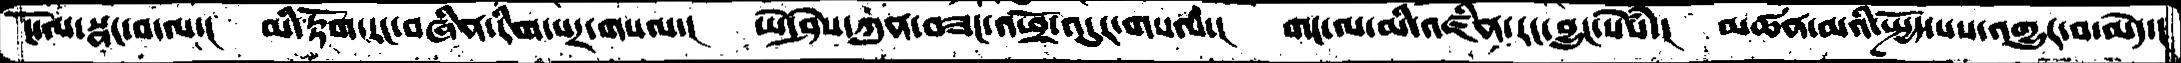ངོ་ལ་སྣང་བ་ལ་།  མི་རྟོག་རང་བཞིན་རིག་པར་གསལ་།  ཡེ་ཤེས་ཀུན་བཟང་འཕྲོ་འདུར་གསལ་།  གང་ལ་མི་འཛིན་རང་བྱུང་སེཾས་།  མཚན་མའི་སྤྱོད་པས་འགྱུར་བ་མེད་།
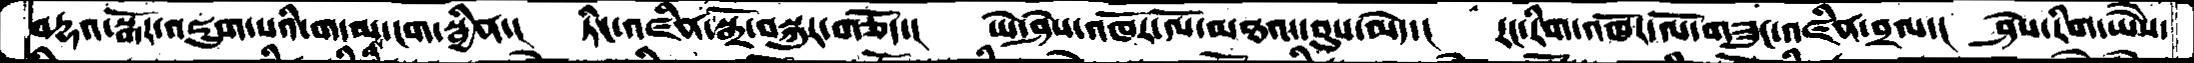བདྷའ་སྒོར་འཇུག་པའི་གདམ་ངག་སྦྱིན་།  ཏིང་འཛིན་སྒྲོ་བསྐུར་གཅོད་།  ཡེ་ཤེས་འཁོར་ལོ་མཐའ་དབུས་མེད་།  རང་རིག་འཁོར་ལོ་གཟུང་འཛིན་བྲལ་།  ཤེས་རིག་ཡཻས་
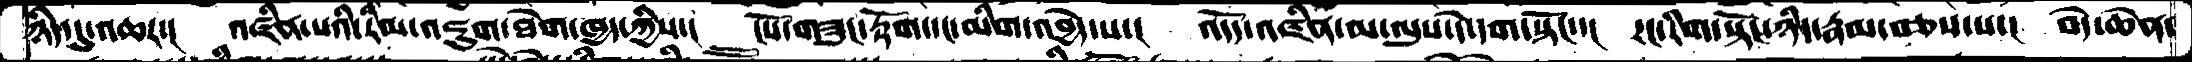ཉིད་དུ་འཆར་།   འཛིན་པའི་རིམ་འཇུག་ཐེག་ཁྱད་ཀྱིས་།  ངོས་གཟུང་རྟོག་དང་མིག་འབྱེད་པ་།   འདོད་འཛིན་མ་ལུས་དེ་དག་སྟོང་།   རང་རིག་སྟོང་ཉིད་རྣམ་བཅས་པ་།  བདེ་ཆེན་
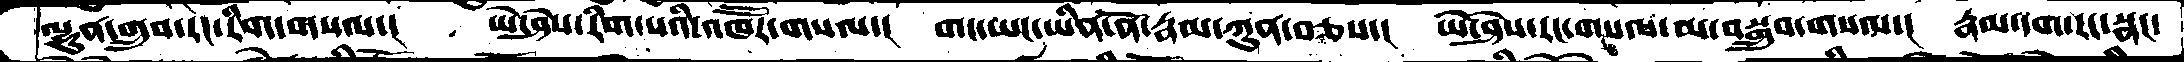ལྷུན་གྲུབ་རང་རིག་གསལ་།  ཡེ་ཤེས་རིག་པའི་འཁཽར་གསལ་།  གང་ཡང་ཡིན་ནོ་རྣམ་ཀུན་བཅས་།  ཡེ་ཤེས་རང་གསལ་མ་བསྒྲུབ་གསལ་།  རྣམ་དག་རང་སྣང་
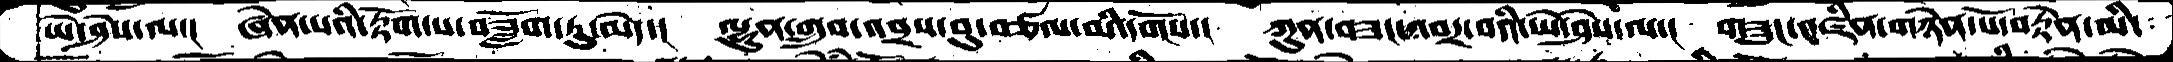ཡེ་ཤེས་ལ་།   ཞེན་པའི་རྟོག་པ་བཟློག་ཏུ་མེད་།   ལྷུན་གྲུབ་འབྲས་བུ་བཙལ་མི་དགོས་།  ཀུན་བཟང་འབར་བའི་ཡེ་ཤེས་ལ་།  གཟུང་འཛིན་གཉེན་པོ་བརྟེན་མི་
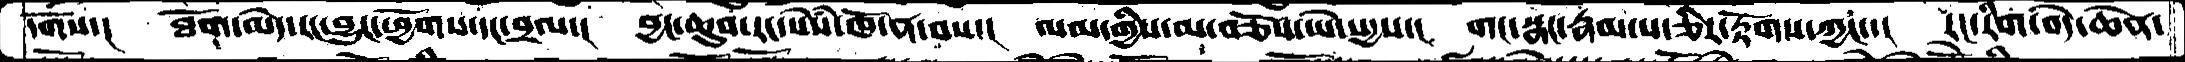དགོས་།  ཐོག་མེད་རང་བྱུང་ཕྱོགས་དང་བྲལ་།  བྱང་ཆུབ་རང་སེསཾ་ཁོ་ན་བས་།   ལམ་གྱིས་མ་བཅོས་ཡེ་སདྱས་།  གང་སྣང་རྣམ་པ་ཅིར་རྟོགས་ཀྱང་།  རང་རིག་བདེ་ཆེན་
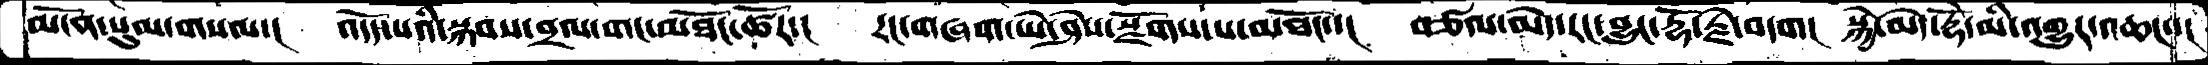མངོན་སུམ་གསལ་།  འོདད་པའི་སྐབས་བྲལ་གང་མཐོང་ཚོར་།  རང་གཞག་ཡེ་ཤེས་སྫོགས་པ་མཐོང་།  བཙལ་མེད་རང་བྱུང་རྡོ་རྗེ་བདག།   སྐྱེ་མེད་རྡོེ་མི་འགྱུར་འཆང་།
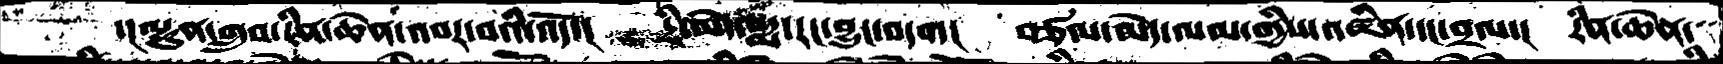་།ལྷུན་གྲུབ་རིན་ཆེན་འབར་བའི་འདོད་།  དྲི་མེད་པདྨ་རང་བྱུང་བདག།  བཙལ་མེད་ལམ་གྱིས་འཛིན་དང་བྲལ་།   རིན་ཆེན་
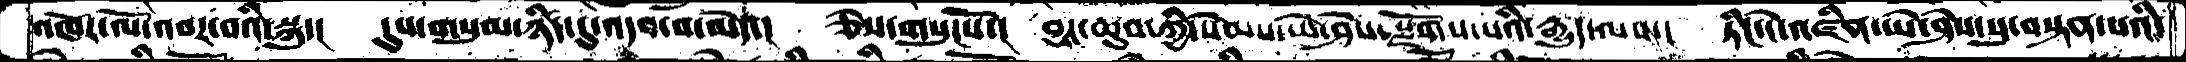འཁོར་ལོ་འབར་བའི་སྐུ་།  དུས་གསུམ་ཉིད་དུ་འདབ་བ་མེད་།  ཅེས་གསུངསོ་།   བྱང་ཆུབ་ཀྱི་སེམས་ཡེ་ཤེས་སྫོགས་པའི་རྒྱུད་ལས་།  ཏིང་ངེ་འཛིན་ཡེ་ཤེས་སུ་བསྟན་པའི་
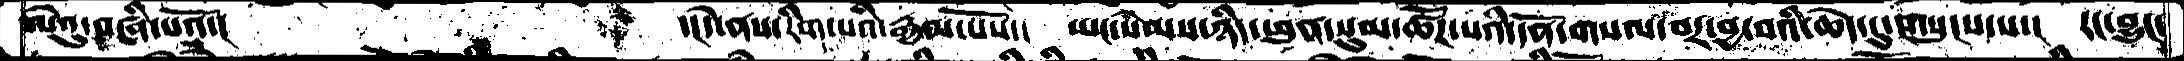ལེའུ་བཞི་པའོ་།   ་།དེ་ནས་རིག་པའི་རྒྱལ་པོས་།   ཡང་སེམས་ཉིད་ཕུན་སུམ་ཚོཌ་པའི་དོན་གསལ་བར་བྱ་བའི་ཆེད་དུ་གསུངས་པ་།  རང་བྱུང་
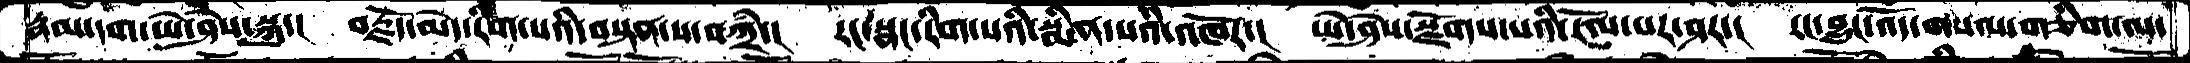རྣམ་དག་ཡེ་ཤེས་སྐུ་།  བརྗོད་མེད་རིག་པའི་བསྟན་པ་བཀྲཾ་།   རང་སྣང་རིག་པའི་སྨིན་པའི་འཁོར་།  ཡེ་ཤེས་སྫོགས་པའི་རོལ་པར་ཤར་།  རང་བྱུང་འོད་གསལ་གཅིག་ལ་
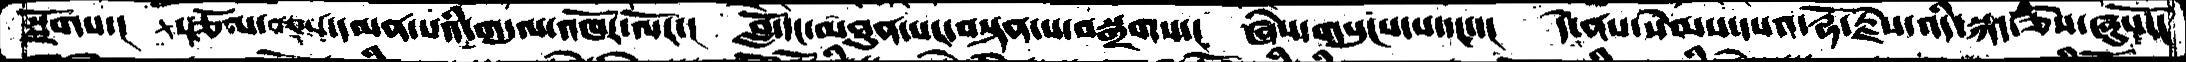སྫོགས་།  སྩོལ་བཅས་དམན་པའི་གདུལ་འཁོར་ལོར་།  བློ་དང་མཐུན་པར་བསྟན་པ་བསྒྲགས་།  ཞེས་གསུངས་པ་དང་་།  དེ་ནས་སེམས་དཔའ་རྡོ་རྗེས་འདི་སྐད་ཅེས་ཞུས་ོང
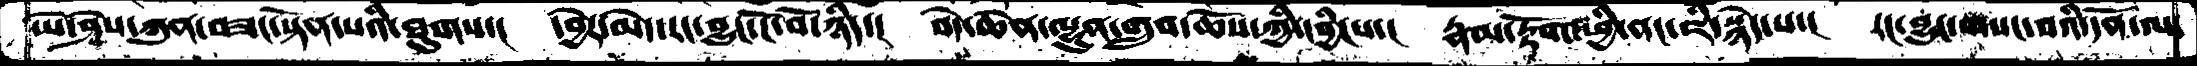ཡེ་ཤེས་ཀུན་བཟང་སྟོན་པའི་ཐུགས་།  དབྱེར་མེད་རང་བྱུང་ངོ་བོ་ཉིད་།   བདེ་ཆེན་ལྷུན་གྲུབ་ཆོས་ཀྱི་དབྱིངས་།  རྣམ་རྟོག་ཕྱི་ནང་ཇི་སྙེདཔ་།  རང་བྱུང་གསང་བའི་དོན་ལ་
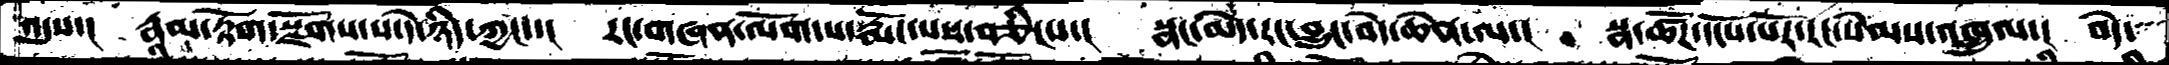འདུས་།   རྣམ་རྟོག་སྫོགས་པ་དེ་ཉིད་ཀྱང་།  རང་གཞན་ལོག་པ་སྨོད་པས་བཅིངས་།  སྣང་མེད་རང་བྱུང་བདེ་ཆེན་ལ་།  སྣ་ཚོཌ་དངོས་པོར་རང་སེམས་འཁྲུལ་།  བདེ་
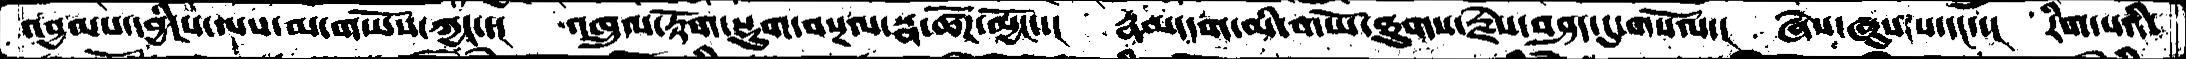འབྱམས་དབྱིངས་ལས་མ་གཡོས་ཀྱང་།   འཁྲུལ་རྟོག་སྡུག་བསྔལ་སྣ་ཚོཌ་མྱོང་།  རྣམ་དག་མི་གཡོ་ཐུགས་རྗེས་བཤད་དུ་གསོལ་།  ཞེས་ཞུས་པ་དང་།  རིག་པའི་
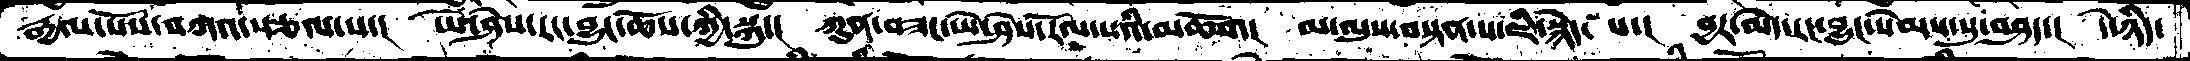རྒྱལ་པོས་བཀའ་སྩལ་པ་།   ཡེ་ཤེས་རང་བྱུང་ཆོས་ཀྱི་སྐུ་།  ཀུན་བཟང་ཡེ་ཤེས་རོལ་པའི་མཆོག།  མ་ལུས་བསྟན་པ་ཇི་སྙེད་པ་།  བྱར་མེད་རང་བྱུང་སེམས་སུ་བཤད་།  དེ་ཉིད་
